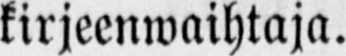kirjeenwaihtaja.
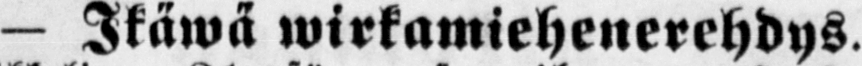— Ikäwä wirkamiehenerehdys.
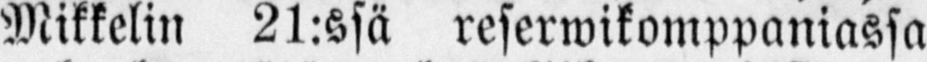Mikkelin 21.-ssä reserwikomppaniassa
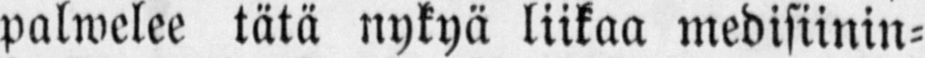palwelee tätä nykyä liikaa medisiinin-
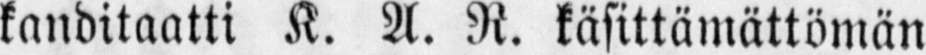kanditaatti K. A. R. käsittämättömän
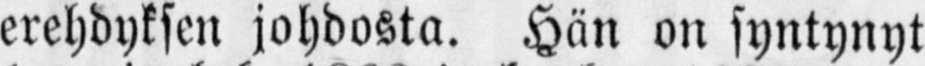erehdyksen johdosta. Hän on syntynyt
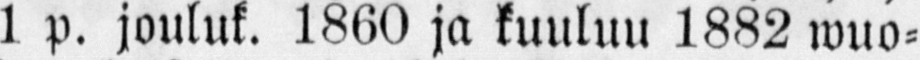1 p. jouluk. 1860 ja kuuluu 1882 wuo-
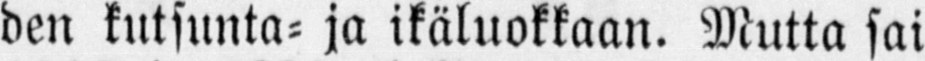den kutsunta- ja ikäluokkaan. Mutta sai
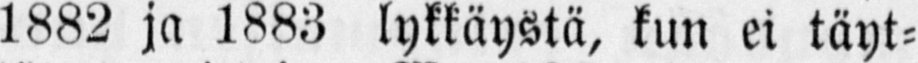1882 ja 1883 lykkäystä, kun ei täyt-
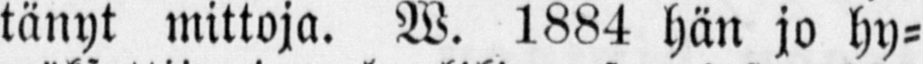tänyt mittoja. W. 1884 hän jo hy-
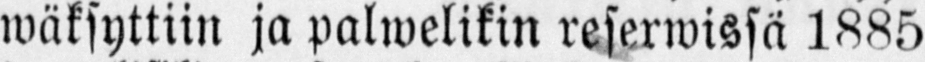wäksyttiin ja palwelikin reserwissä 1885
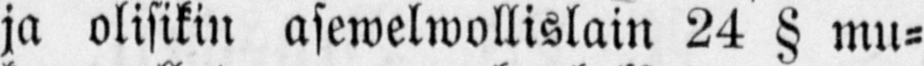ja olisikin asewelwollislain 24 § mu-
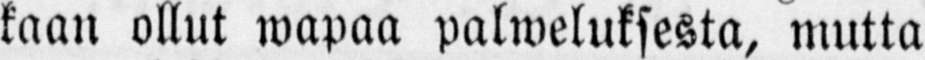kaan ollut wapaa palweluksesta, mutta
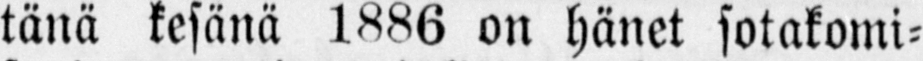tänä kesänä 1886 on hänet sotakomi-
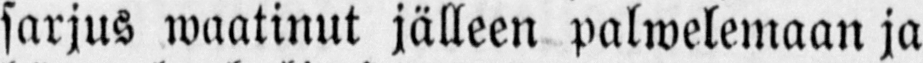sarjus waatinut jälleen palwelemaan ja
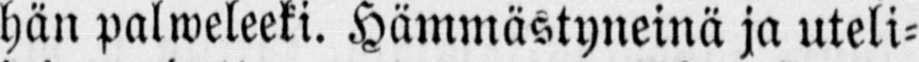hän palweleeki. Hämmästyneinä ja uteli-
